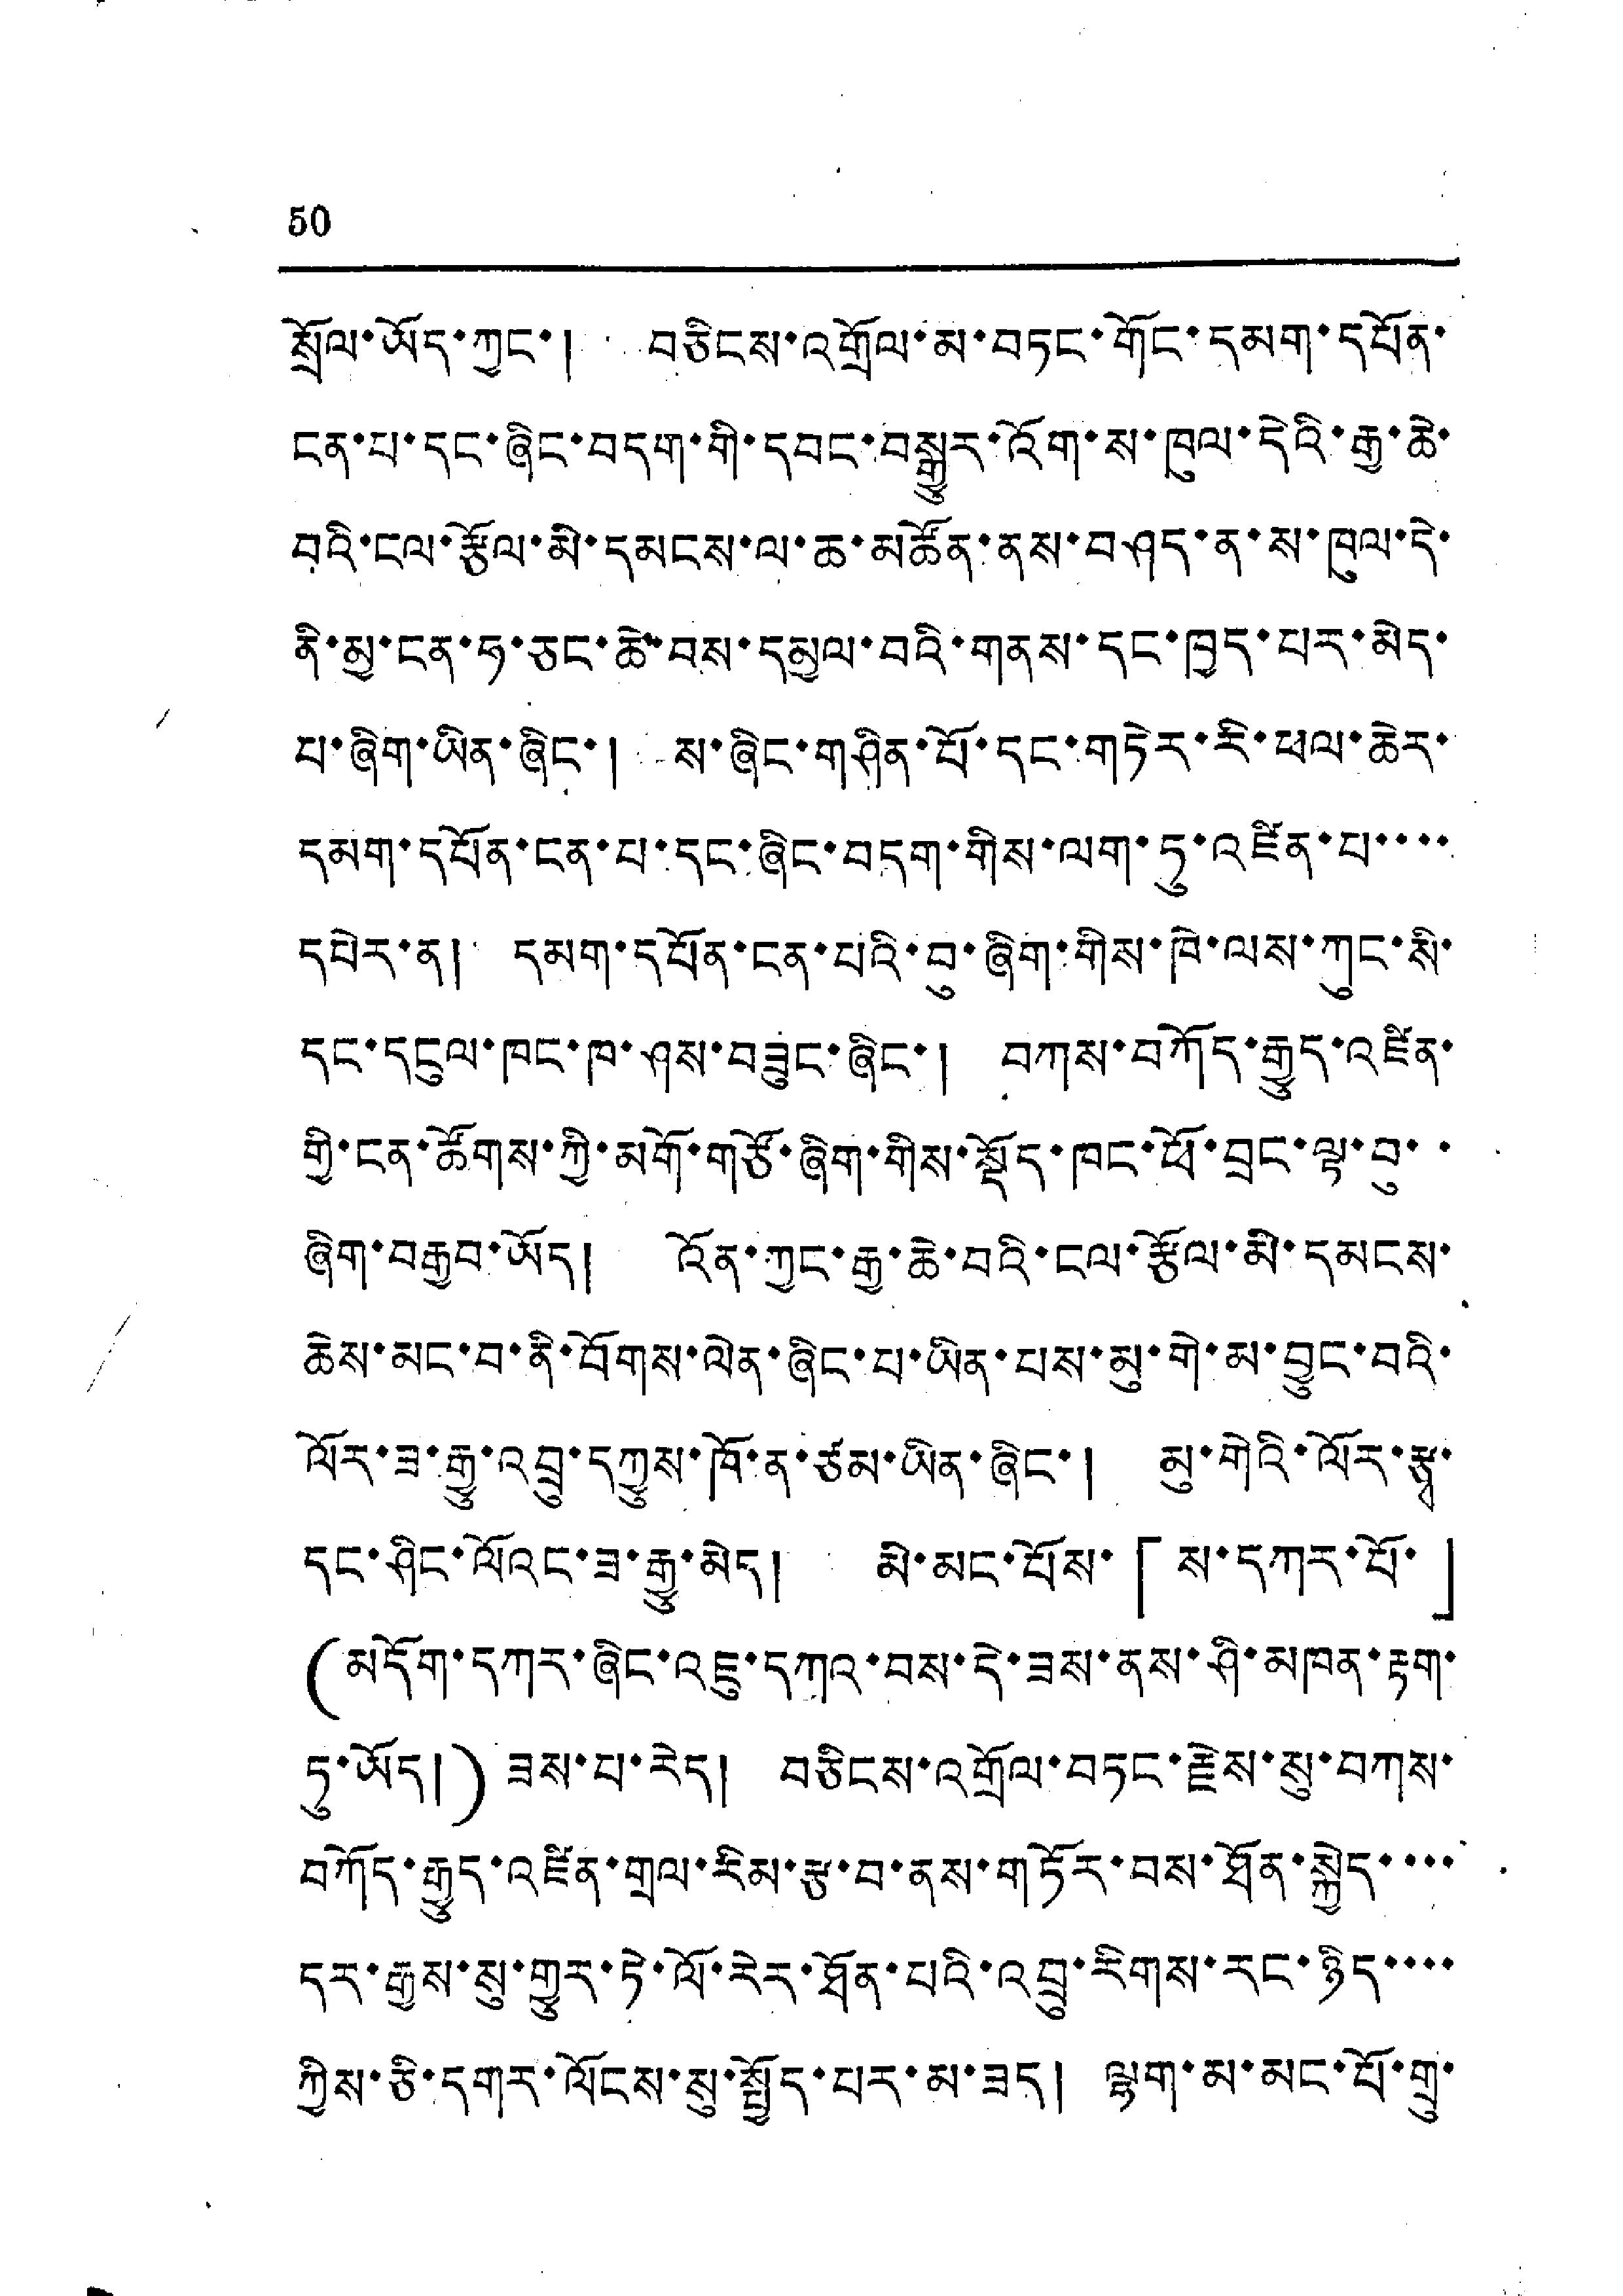50
སྲོལ་ཡོད་ཀྱང་། བཅིངས་འགྲོལ་མ་བཏང་གོང་དམག་དཔོན་
ངན་པ་དང་ཞིང་བདག་གི་དབང་བསྒྱུར་འོག་ས་ཁུལ་དེའི་རྒྱ་ཆེ་
བའི་ངལ་རྩོལ་མི་དམངས་ལ་ཆ་མཚོན་ནས་བཤད་ན་ས་ཁུལ་དེ་
ནི་མྱ་ངན་ཧ་ཅང་ཆེ་བས་དམྱལ་བའི་གནས་དང་ཁྱད་པར་མེད་
པ་ཞིག་ཡིན་ཞིང་། ས་ཞིང་གཤིན་པོ་དང་གཏེར་རི་ཕལ་ཆེར་
དམག་དཔོན་ངན་པ་དང་ཞིང་བདག་གིས་ལག་ཏུ་འཛིན་པ་་་་
དཔེར་ན། དམག་དཔོན་ངན་པའི་བུ་ཞིག་གིས་ཁེ་ལས་ཀུང་སི་
དང་དངུལ་ཁང་ཁ་ཤས་བཟུང་ཞིང་། བཀས་བཀོད་རྒྱུད་འཛིན་
གྱི་ངན་ཚོགས་ཀྱི་མགོ་གཙོ་ཞིག་གིས་སྡོད་ཁང་ཕོ་བྲང་ལྟ་བུ་་
ཞིག་བརྒྱབ་ཡོད། འོན་ཀྱང་རྒྱ་ཆེ་བའི་ངལ་རྩོལ་མི་དམངས་
ཆེས་མང་བ་ནི་བོགས་ལེན་ཞིང་པ་ཡིན་པས་མུ་གེ་མ་བྱུང་བའི་
ལོར་ཟ་རྒྱུ་འབྲུ་དཀྱུས་ཁོ་ན་ཙམ་ཡིན་ཞིང་། མུ་གེའི་ལོར་རྩྭ་
དང་ཤིང་ལོའང་ཟ་རྒྱུ་མེད། མི་མང་པོས་「ས་དཀར་པོ་」
(མདོག་དཀར་ཞིང་འཇུ་དཀའ་བས་དེ་ཟས་ནས་ཤི་མཁན་རྟག་
ཏུ་ཡོད།) ཟས་པ་རེད། བཅིངས་འགྲོལ་གཏང་རྗེས་སུ་བཀས་
བཀོད་རྒྱུད་འཛིན་གྲལ་རིམ་རྩ་བ་ནས་གཏོར་བས་ཐོན་སྐྱེད་་་་
དར་རྒྱས་སུ་གྱུར་ཏེ་ལོ་རེར་ཐོན་པའི་འབྲུ་རིགས་རང་ཉིད་་་་
ཀྱིས་ཅི་དགར་ལོངས་སུ་སྤྱོད་པར་མ་ཟད། ལྷག་མ་མང་པོ་གྲུ་
